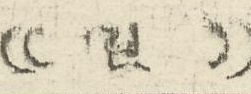(( ལྔ་ ))
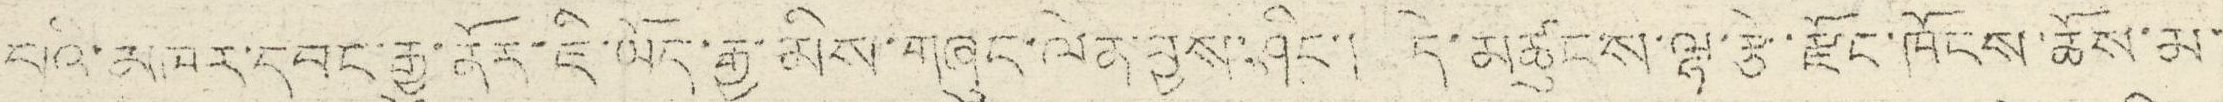པའི་མཁར་དབང་རྒྱུ་ནོར་ཇི་ཡོད་རྒྱ་མིས་གཞུང་ལེན་བྱས་ཤིང་། དེ་མཚུངས་ལྷ་རྩེ་རྫོང་ཁོངས་ཆོས་མ་
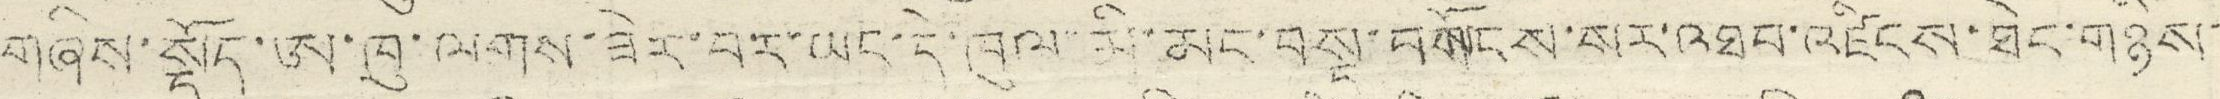གཞིས་སྡོད་ཨ་ཁུ་ལགས་ཟེར་བར་ཡང་དེ་ཁུལ་གི་མང་བསྡུ་བགོངས་སར་འཐབ་འཛིངས་ཐེང་གཉིས་
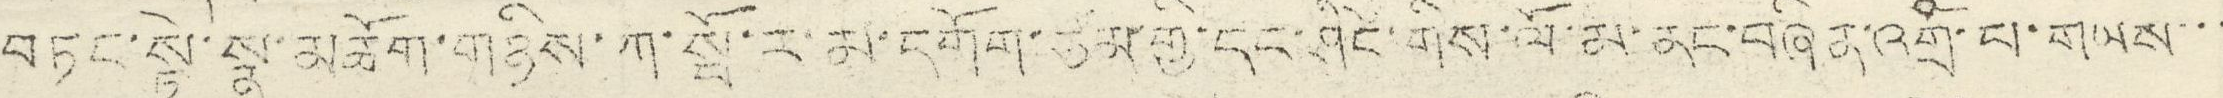བཏང་སྟེ་སྣ་མཆོག་གཉིས་ཀ་སྦོ་ར་མ་དགོག་ཙམ་གྱི་དང་ཤིང་གིས་ལོ་མ་ནང་བཞིན་འགྲོ་པ་གཡས་་་
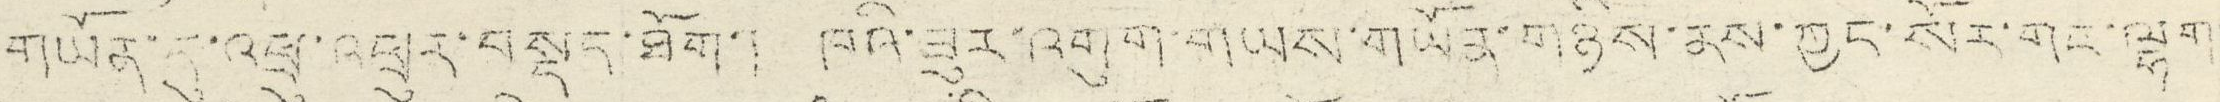གཡོན་དུ་འཕྲུ་འཕྲུར་བསྡད་ཐོག་། ཁའི་ཟུར་འགུག་གཡས་གཡོན་གཉིས་ནས་ཀྱང་སོར་གང་ལྷག་
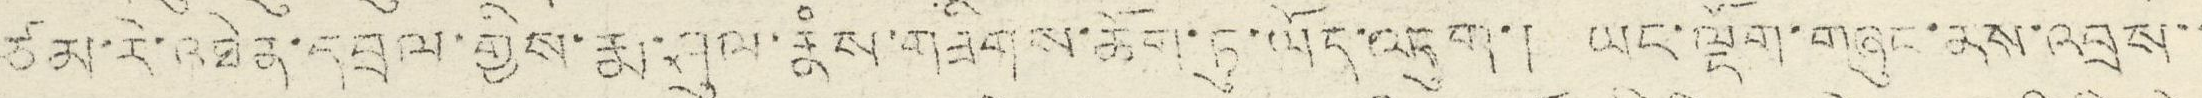ཙམ་རེ་འཐེན་དབྲལ་གྱིས་རྨ་ཤུལ་རྣཾས་གཟིགས་ཆོག་ཏུ་ལོད་འདུག་། ཡང་ལྡོག་གཞུང་ནས་འབྲས་་
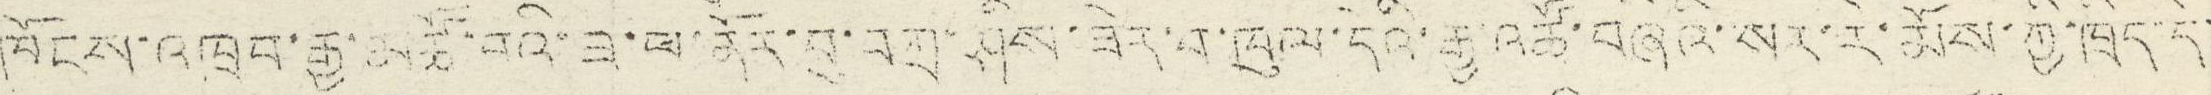ཁོངས་འཁྲབ་རྒྱ་མཚོ་བའི་ཟ་ཕ་ནོར་བ་བཀྲ་ཤིས་ཟེར་བ་ཁུལ་དེའི་རྒྱ་འཚོ་བཞིའི་སར་རི་མོས་ཀྱི་ཁྲིད་དེ་
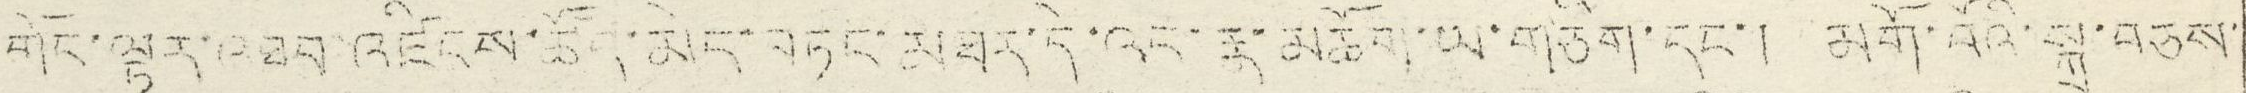གོང་ལྟར་འཐབ་འཛིངས་ཚོད་མེད་བཏང་མཐར་དེ་འདྲ་རྣ་མཆོག་ཡ་གཅིག་དང་། མགོ་བོའི་སྐྲ་བཅས་
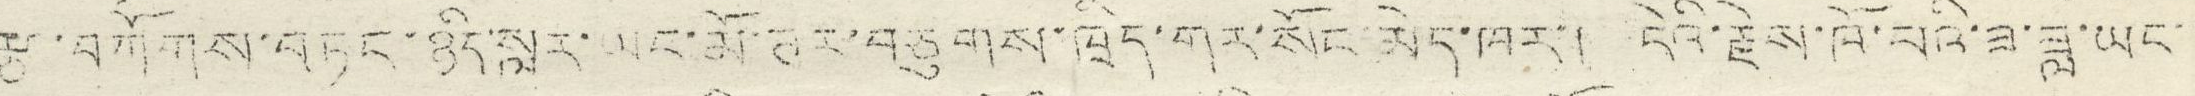རྩ་བཀོགས་བཏང་ཉིད་སླར་ཡང་མི་ཊར་བཅུགས་ཁྲིད་གར་སོང་མེད་ཁར་། དེའི་རྗེས་ཁོ་བའི་ཟླ་ཡང་་
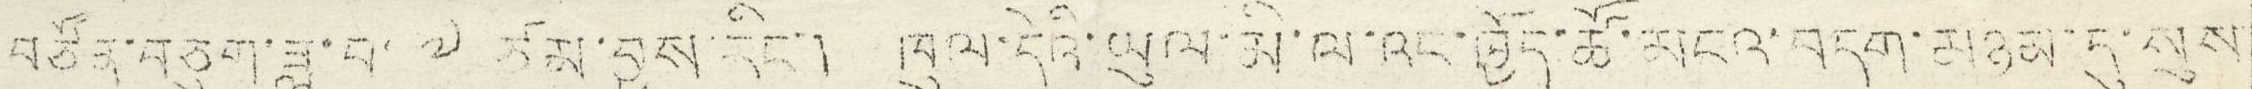བཙོན་བཅུག་ཟླ་བ་ ༧ ཙམ་བྱས་རིང་། ཁུལ་དེའི་ཡུལ་མི་ལ་འང་ཁྱོད་ཚོ་མངའ་བདག་བཉམ་དུ་སུས
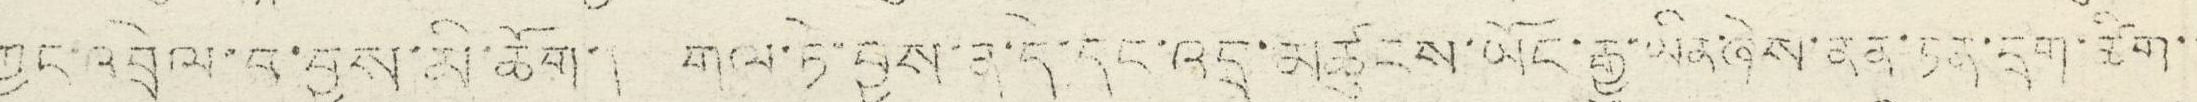ཀྱང་འབྲེལ་བ་བྱས་མི་ཆོག་། གལ་ཏེ་བྱས་ན་དེ་དང་འདྲ་མཚུངས་ཡོང་རྒྱུ་ཡིན་ཞེས་ནན་ཏན་དྲན་ཚིག་་
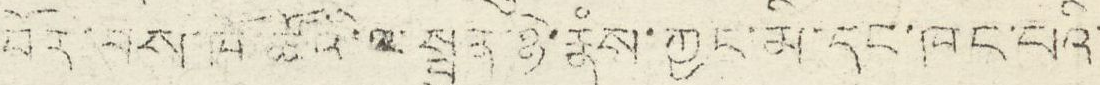བོར་བས་ཁོ་ཚོའི་སྤུན་ཉེ་རྣཾས་ཀྱང་མི་དང་ཁང་པའི་
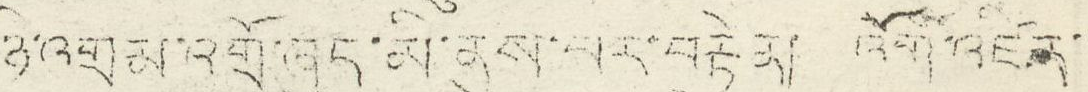ཉེ་འགྲམ་འགྲོ་ཞུད་མི་ནུས་པར་བརྟེན། འོག་འཛིན་་
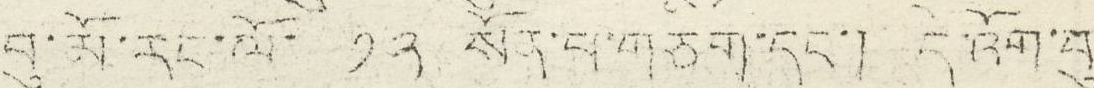བུ་མོ་རང་ལོ་ ༡༢ སོན་པ་གཅིག་དང་། དེ་འོག་བུ
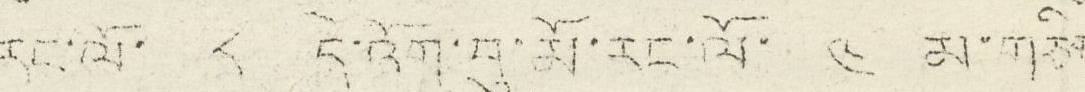རང་ལོ་ ༨ དེ་འོག་དུ་མོ་རང་ལོ་ ༤ མ་གཅིག
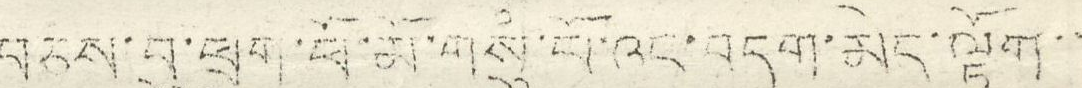བཅས་བུ་ཕྲུག་ཕོ་མོ་གསུཾ་པོ་འང་བདག་མེད་ལྟོག་་
